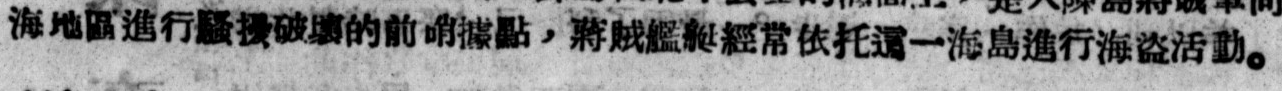海地區進行騷擾破壞的前哨據點，蔣賊艦艇經常依托這一海島進行海盜活動。
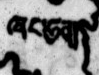ཞང་ཧྲན།
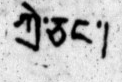ཀྲེ་ཅང་།
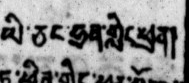ཡི་ཅང་ཧྲན་གླིང་ཕྲན།
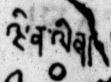ཝིན་ལིན།
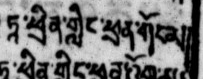ཏཱ་ཕྲིན་གླིང་ཕྲན་གོང་མ།
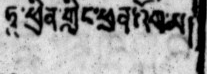ཏཱ་ཕྲིན་གླིང་ཕྲན་འོག་མ།
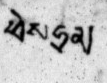ཕེས་ཧྲན།
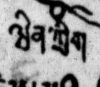ཝིན་ཀྲིག
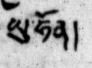ཡུ་ཧོན།
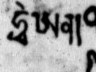ཧྥུ་ཨན།
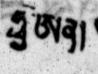ཧྥེ་ཨན།
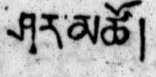ཤར་མཚོ།
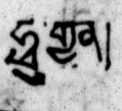ཧྥུ་གྱན།
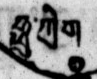ཧྥུ་ཀྲིག་
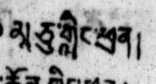མཱ་ཅུ་གླིང་ཕྲན།
